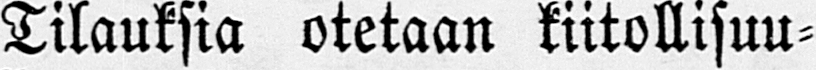Tilauksia otetaan kiitollisuu-
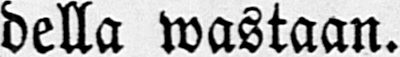della wastaan.
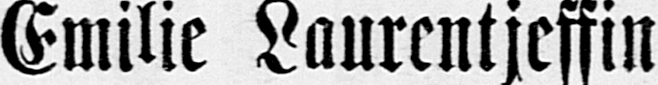Emilie Laurentjeffin
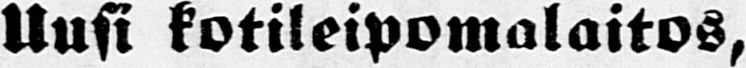Uusi kotileipomalaitos,
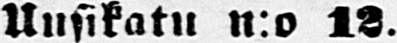Uusikatu n:o 12.
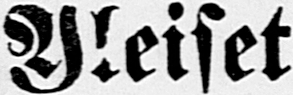Yleiset
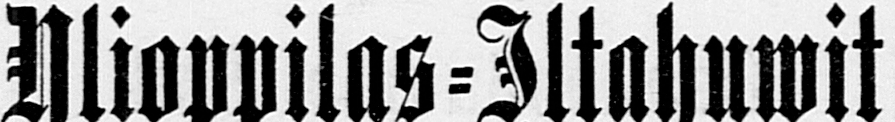Ylioppilas-Iltahuwit
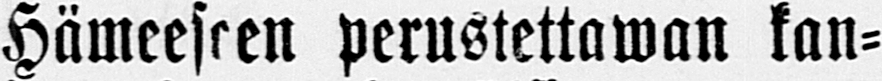Hämeeseen perustettawan kan-
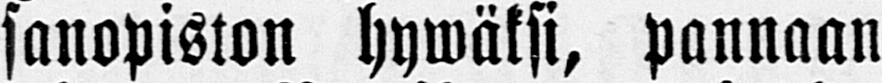sanopiston hywäksi, pannaan
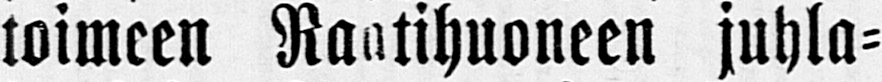toimeen Raatihuoneen juhla-
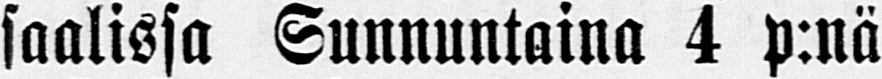saalissa Sunnuntaina 4 p:nä
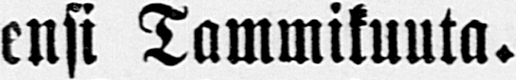ensi Tammikuuta.
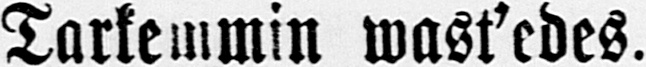Tarkemmin wast'edes.
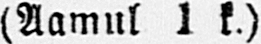(Aamul 1 k.)
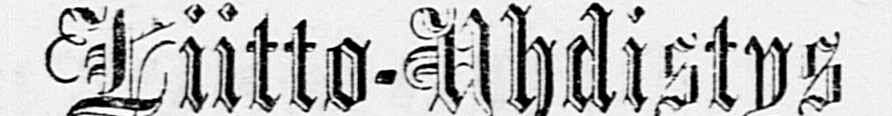Liito-Yhdistys
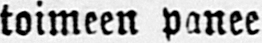toimeen panee
